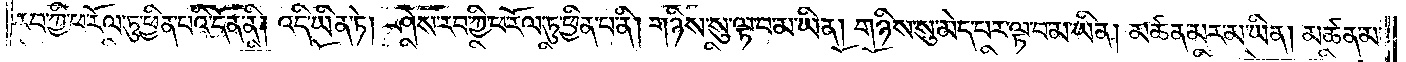རབ་ཀྱི་ཕ་རོལ་ཏུ་ཕྱིན་པའི་དོན་ནི། འདི་ཡིན་ཏེ། ཤེས་རབ་ཀྱི་ཕ་རོལ་ཏུ་ཕྱིན་པ་ནི། གཉིས་སུ་ལྟ་བ་མ་ཡིན། གཉིས་སུ་མེད་པར་ལྟ་བ་མ་ཡིན། མཚན་མར་མ་ཡིན། མཚན་མ་
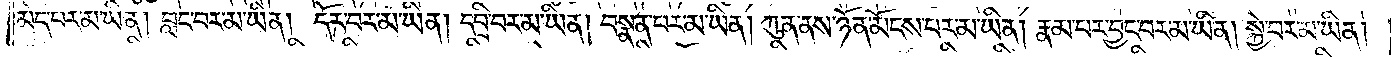མེད་པར་མ་ཡིན། བླང་བར་མ་ཡིན། དོར་བར་མ་ཡིན། དབྲི་བར་མ་ཡིན། བསྣན་པར་མ་ཡིན། ཀུན་ནས་ཉོན་མོངས་པར་མ་ཡིན། རྣམ་པར་བྱང་བར་མ་ཡིན། སྐྱེ་བར་མ་ཡིན།
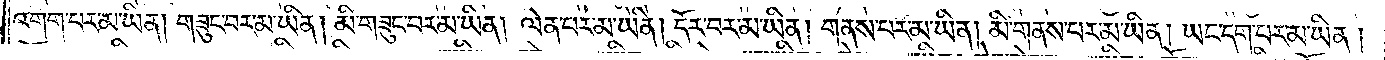འགག་པར་མ་ཡིན། གཟུང་བར་མ་ཡིན། མི་གཟུང་བར་མ་ཡིན། ལེན་པར་མ་ཡིན། དོར་བར་མ་ཡིན། གནས་བར་མ་ཡིན། མི་གནས་པར་མ་ཡིན། ཡང་དག་པར་མ་ཡིན།
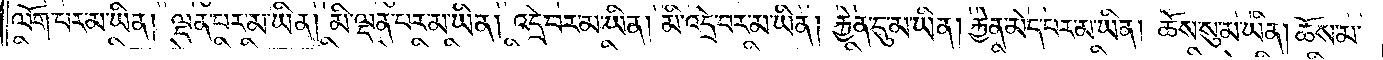ལོག་པར་མ་ཡིན། ལྡན་པར་མ་ཡིན། མི་ལྡན་པར་མ་ཡིན། འདྲེ་བར་མ་ཡིན། མི་འདྲེ་བར་མ་ཡིན། རྐྱེན་དུ་མ་ཡིན། རྐྱེན་མེད་པར་མ་ཡིན། ཆོས་སུ་མ་ཡིན། ཆོས་མ་
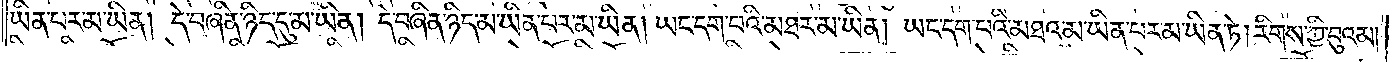ཡིན་པར་མ་ཡིན། དེ་བཞིན་ཉིད་དུ་མ་ཡིན། དེ་བཞིན་ཉིད་མ་ཡིན་པར་མ་ཡིན། ཡང་དག་པའི་མཐར་མ་ཡིན། ཡང་དག་པའི་མཐའ་མ་ཡིན་པར་མ་ཡིན་ཏེ། རིགས་ཀྱི་བུའམ།
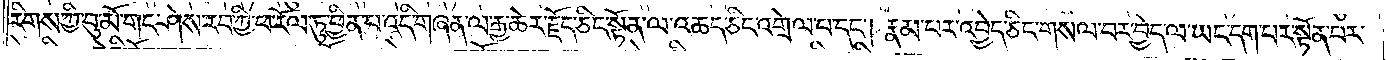རིགས་ཀྱི་བུ་མོ་གང་ཤེས་རབ་ཀྱི་ཕ་རོལ་ཏུ་ཕྱིན་པ་འདི་གཞན་ལ་རྒྱ་ཆེར་རྗོད་ཅིང་སྟོན་ལ་འཆད་ཅིང་འགྲེལ་པ་དང༌། རྣམ་པར་འབྱེད་ཅིང་གསལ་བར་བྱེད་ལ་ཡང་དག་པར་སྟོན་པར་
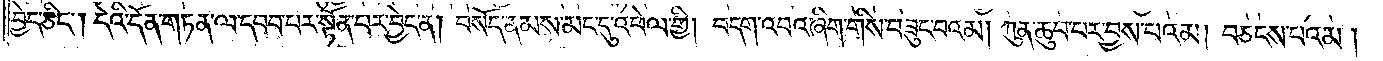བྱེད་ཅིང༌། དེའི་དོན་གཏན་ལ་དབབ་པར་སྟོན་པར་བྱེད་ན། བསོད་ནམས་མང་དུ་འཕེལ་གྱི། བདག་འབའ་ཞིག་གིས་བཟུང་བའམ། ཀུན་ཆུབ་པར་བྱས་པའམ། བཅངས་པའམ།
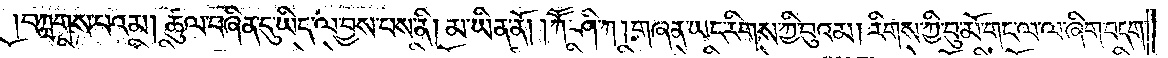བཀླགས་པའམ། ཚུལ་བཞིན་དུ་ཡིད་ལ་བྱས་པས་ནི། མ་ཡིན་ནོ། །ཀཽ་ཤི་ཀ། གཞན་ཡང་རིགས་ཀྱི་བུའམ། རིགས་ཀྱི་བུ་མོ་གང་ལ་ལ་ཞིག་བདག་
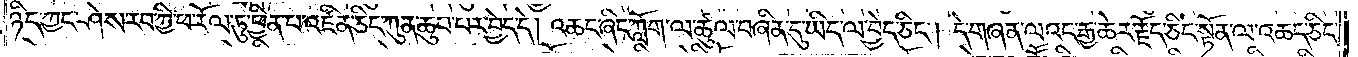ཉིད་ཀྱང་ཤེས་རབ་ཀྱི་ཕ་རོལ་ཏུ་ཕྱིན་པ་འཛིན་ཅིང་ཀུན་ཆུབ་པར་བྱེད་དེ། འཆང་ཞིང་ཀློག་ལ་ཚུལ་བཞིན་དུ་ཡིད་ལ་བྱེད་ཅིང༌། དེ་གཞན་ལའང་རྒྱ་ཆེར་རྗོད་ཅིང་སྟོན་ལ་འཆད་ཅིང་
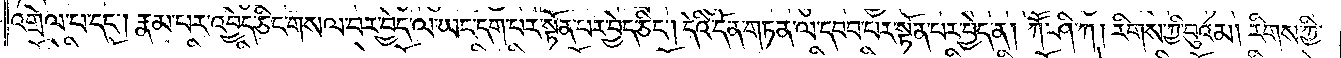འགྲེལ་པ་དང༌། རྣམ་པར་འབྱེད་ཅིང་གསལ་བར་བྱེད་ལ་ཡང་དག་པར་སྟོན་པར་བྱེད་ཅིང༌། དེའི་དོན་གཏན་ལ་དབབ་པར་སྟོན་པར་བྱེད་ན། ཀཽ་ཤི་ཀ། རིགས་ཀྱི་བུའམ། རིགས་ཀྱི་
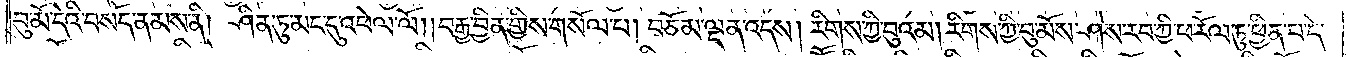བུ་མོ་དེའི་བསོད་ནམས་ནི། ཤིན་ཏུ་མང་དུ་འཕེལ་ལོ། །བརྒྱ་བྱིན་གྱིས་གསོལ་པ། བཅོམ་ལྡན་འདས། རིགས་ཀྱི་བུའམ། རིགས་ཀྱི་བུ་མོས་ཤེས་རབ་ཀྱི་ཕ་རོལ་ཏུ་ཕྱིན་པ་དེ་
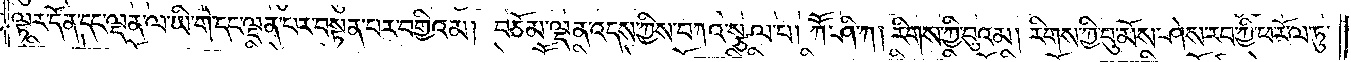ལྟར་དོན་དང་ལྡན་ལ་ཡི་གེ་དང་ལྡན་པར་བསྟན་པར་བགྱིའམ། བཅོམ་ལྡན་འདས་ཀྱིས་བཀའ་སྩལ་པ། ཀཽ་ཤི་ཀ། རིགས་ཀྱི་བུའམ། རིགས་ཀྱི་བུ་མོས་ཤེས་རབ་ཀྱི་ཕ་རོལ་ཏུ་
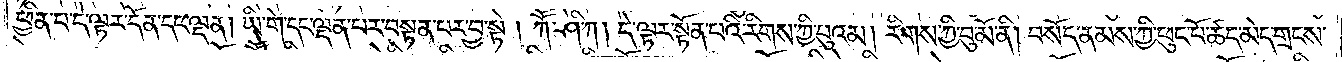ཕྱིན་པ་དེ་ལྟར་དོན་དང་ལྡན། ཡི་གེ་དང་ལྡན་པར་བསྟན་པར་བྱས་ཏེ། ཀཽ་ཤི་ཀ། དེ་ལྟར་སྟོན་པའི་རིགས་ཀྱི་བུའམ། རིགས་ཀྱི་བུ་མོ་ནི། བསོད་ནམས་ཀྱི་ཕུང་པོ་ཚད་མེད་གྲངས་
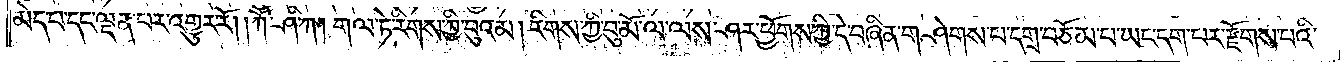མེད་པ་དང་ལྡན་པར་འགྱུར་རོ། །ཀཽ་ཤི་ཀ། གལ་ཏེ་རིགས་ཀྱི་བུའམ། རིགས་ཀྱི་བུ་མོ་ལ་ལས་ཤར་ཕྱོགས་ཀྱི་དེ་བཞིན་གཤེགས་པ་དགྲ་བཅོམ་པ་ཡང་དག་པར་རྫོགས་པའི་
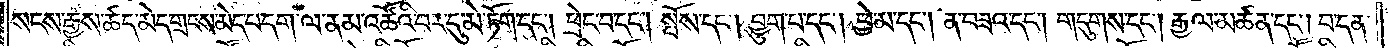སངས་རྒྱས་ཚད་མེད་གྲངས་མེད་པ་དག་ལ་ནམ་འཚོའི་བར་དུ་མེ་ཏོག་དང༌། ཕྲེང་བ་དང༌། སྤོས་དང༌། བྱུག་པ་དང༌། ཕྱེ་མ་དང༌། ན་བཟའ་དང༌། གདུགས་དང༌། རྒྱལ་མཚན་དང༌། བ་དན་
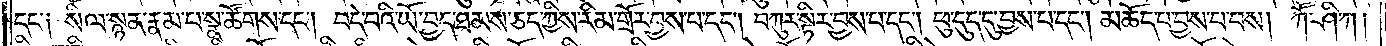དང་༑ སིལ་སྙན་རྣམ་པ་སྣ་ཚོགས་དང༌། བདེ་བའི་ཡོ་བྱད་ཐམས་ཅད་ཀྱིས་རིམ་གྲོར་བྱས་པ་དང༌། བཀུར་སྟིར་བྱས་པ་དང༌། ཕུ་དུད་དུ་བྱས་པ་དང༌། མཆོད་པ་བྱས་པ་བས། ཀཽ་ཤི་ཀ།
